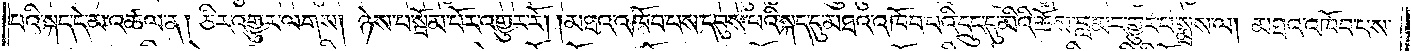པའི་སྐད་དེ་མ་འཚལ་ན། ཅིར་འགྱུར་ལགས། ཉེས་པ་སྦོམ་པོར་འགྱུར་རོ། །མཐའ་འཁོབ་པས་དབུས་པའི་སྐད་དུ་མཐའ་འཁོབ་པའི་དྲུང་དུ་མིའི་ཆོས་བླ་མར་གྱུར་པ་སྨྲས་ལ། མཐའ་འཁོབ་པས་
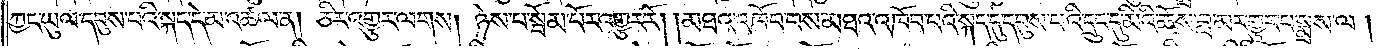ཀྱང་ཡུལ་དབུས་པའི་སྐད་དེ་མ་འཚལ་ན། ཅིར་འགྱུར་ལགས། ཉེས་པ་སྦོམ་པོར་འགྱུར་རོ། །མཐའ་འཁོབ་པས་མཐའ་འཁོབ་པའི་སྐད་དུ་དབུས་པའི་དྲུང་དུ་མིའི་ཆོས་བླ་མར་གྱུར་པ་སྨྲས་ལ།
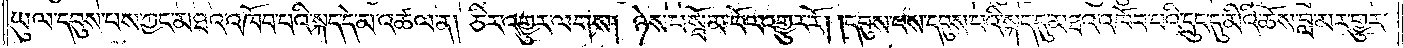ཡུལ་དབུས་པས་ཀྱང་མཐའ་འཁོབ་པའི་སྐད་དེ་མ་འཚལ་ན། ཅིར་འགྱུར་ལགས། ཉེས་པ་སྦོམ་པོར་འགྱུར་རོ། །དབུས་པས་དབུས་པའི་སྐད་དུ་མཐའ་འཁོབ་པའི་དྲུང་དུ་མིའི་ཆོས་བླ་མར་གྱུར་
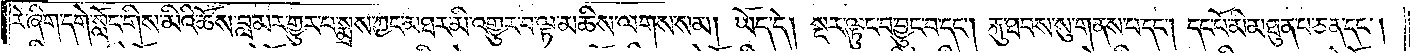རེ་ཞིག་དགེ་སློང་གིས་མིའི་ཆོས་བླ་མར་གྱུར་པ་སྨྲས་ཀྱང་མཐར་མི་འགྱུར་བ་ལྟ་མཆིས་ལགས་སམ། ཡོད་དེ། སྔར་ལྟུང་བ་བྱུང་བ་དང༌། རྐུ་ཐབས་སུ་གནས་པ་དང༌། དང་པོ་མི་མཐུན་པ་ཅན་དང༌།
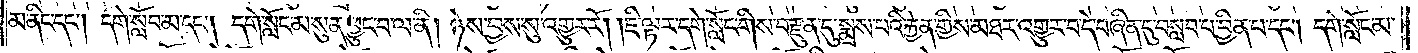མ་ནིང་དང༌། དགེ་སློབ་མ་དང༌། དགེ་སློང་མ་སུན་ཕྱུང་བ་ལ་ནི། ཉེས་བྱས་སུ་འགྱུར་རོ། །ཇི་ལྟར་དགེ་སློང་གིས་བརྫུན་དུ་སྨྲས་པའི་རྐྱེན་གྱིས་མཐར་འགྱུར་བ་དེ་བཞིན་དུ་བསླབ་པ་བྱིན་པ་དང༌། དགེ་སློང་མ་
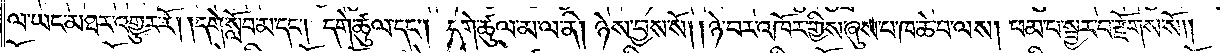ལ་ཡང་མཐར་འགྱུར་རོ། །དགེ་སློབ་མ་དང༌། དགེ་ཚུལ་དང༌། དགེ་ཚུལ་མ་ལ་ནི། ཉེས་བྱས་སོ། །ཉེ་བར་འཁོར་གྱིས་ཞུས་པ་ཁ་ཆེ་བ་ལས། ཕམ་པ་སྦྱར་བ་རྫོགས་སོ༎
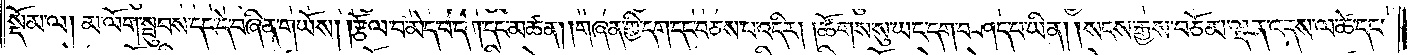སྡོམ་ལ། མ་ལོག་སྦུབས་དང་དེ་བཞིན་གཡོས། །རྩོལ་བ་མེད་པ་དག་དང་མཚན། །གཞན་གྱི་དག་དང་བཅས་པ་འདིར། །ཚོགས་སུ་ཡང་དག་བཤད་པ་ཡིན། །སངས་རྒྱས་བཅོམ་ལྡན་འདས་ལ་ཚེ་དང་
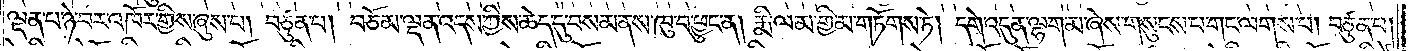ལྡན་པ་ཉེ་བར་འཁོར་གྱིས་ཞུས་པ། བཙུན་པ། བཅོམ་ལྡན་འདས་ཀྱིས་ཆེད་དུ་བསམ་ནས་ཁུ་བ་ཕྱུང་ན། རྨི་ལམ་གྱི་མ་གཏོགས་ཏེ། དགེ་འདུན་ལྷག་མ་ཞེས་གསུངས་པ་གང་ལགས་པ། བཙུན་པ།
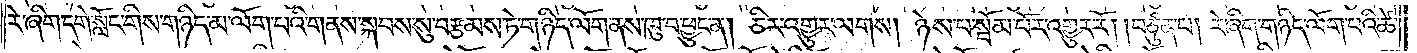རེ་ཞིག་དགེ་སློང་གིས་གཉིད་མ་ལོག་པའི་གནས་སྐབས་སུ་བརྩམས་ཏེ་གཉིད་ལོག་ནས་ཁུ་བ་ཕྱུང་ན། ཅིར་འགྱུར་ལགས། ཉེས་པ་སྦོམ་པོར་འགྱུར་རོ། །བཙུན་པ། རེ་ཞིག་གཉིད་ལོག་པའི་ཚེ་
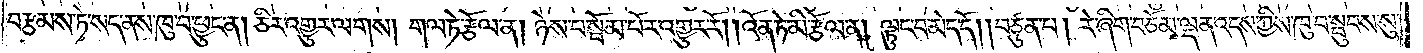བརྩམས་ཏེ་སད་ནས་ཁུ་བ་ཕྱུང་ན། ཅིར་འགྱུར་ལགས། གལ་ཏེ་རྩོལ་ན། ཉེས་པ་སྦོམ་པོར་འགྱུར་རོ། །འོན་ཏེ་མི་རྩོལ་ན། ལྟུང་བ་མེད་དོ། །བཙུན་པ། རེ་ཞིག་བཅོམ་ལྡན་འདས་ཀྱིས་ཁུ་བ་སྦུབས་སུ་
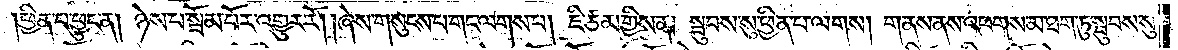ཕྱིན་པ་ཕྱུང་ན། ཉེས་པ་སྦོམ་པོར་འགྱུར་རོ། །ཞེས་གསུངས་པ་གང་ལགས་པ། ཇི་ཙམ་གྱིས་ན། སྦུབས་སུ་ཕྱིན་པ་ལགས། གནས་ནས་འཕགས་མ་ཐག་ཏུ་སྦུབས་སུ་
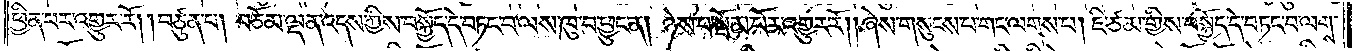ཕྱིན་པར་འགྱུར་རོ། །བཙུན་པ། བཅོམ་ལྡན་འདས་ཀྱིས་བསྐྱོད་དེ་བཏང་བ་ལས་ཁུ་བ་ཕྱུང་ན། ཉེས་པ་སྦོམ་པོར་འགྱུར་རོ། །ཞེས་གསུངས་པ་གང་ལགས་པ། ཇི་ཙམ་གྱིས་བསྐྱོད་དེ་བཏང་བ་ལགས་
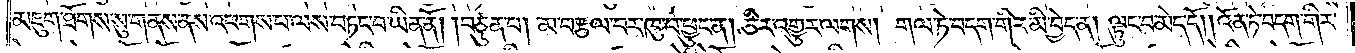མཇུག་ཐོགས་སུ་གནས་ནས་འཕགས་པ་ལས་བཏང་བ་ཡིན་ནོ། །བཙུན་པ། མ་བརྩལ་བར་ཁུ་བ་ཕྱུང་ན། ཅིར་འགྱུར་ལགས། གལ་ཏེ་བདག་གིར་མི་བྱེད་ན། ལྟུང་བ་མེད་དོ། །འོན་ཏེ་བདག་གིར་
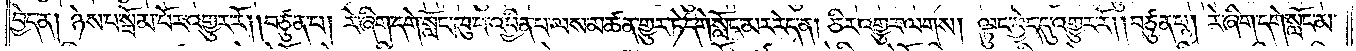བྱེད་ན། ཉེས་པ་སྦོམ་པོར་འགྱུར་རོ། །བཙུན་པ། རེ་ཞིག་དགེ་སློང་ཁུ་བ་འབྱིན་པ་ལས་མཚན་གྱུར་ཏེ་དགེ་སློང་མར་རེད་ན། ཅིར་འགྱུར་ལགས། ལྟུང་བྱེད་དུ་འགྱུར་རོ། །བཙུན་པ། རེ་ཞིག་དགེ་སློང་མ་
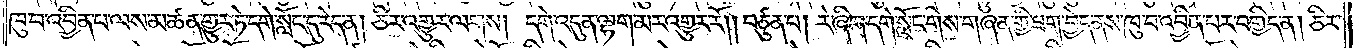ཁུ་བ་འབྱིན་པ་ལས་མཚན་གྱུར་ཏེ་དགེ་སློང་དུ་རེད་ན། ཅིར་འགྱུར་ལགས། དགེ་འདུན་ལྷག་མར་འགྱུར་རོ། །བཙུན་པ། རེ་ཞིག་དགེ་སློང་གིས་གཞན་གྱི་ཟག་བྱེད་ནས་ཁུ་བ་འབྱིན་པར་བགྱིད་ན། ཅིར་
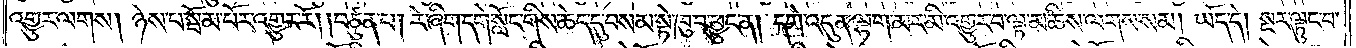འགྱུར་ལགས། ཉེས་པ་སྦོམ་པོར་འགྱུར་རོ། །བཙུན་པ། རེ་ཞིག་དགེ་སློང་གིས་ཆེད་དུ་བསམ་སྟེ་ཁུ་བ་ཕྱུང་ན། དགེ་འདུན་ལྷག་མར་མི་འགྱུར་བ་ལྟ་མཆིས་ལགས་སམ། ཡོད་དེ། སྔར་ལྟུང་བ་
